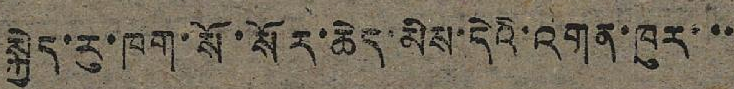སྐྱེད་རུ་ཁག་སོ་སོར་ཆེད་མིས་དེའི་འགན་ཁུར་་་
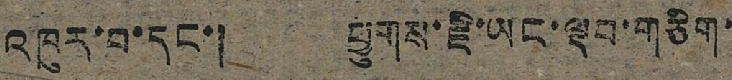འཁུར་བ་དང་། ཕྱུགས་རྫི་ཡང་ལྡབ་གཅིག་
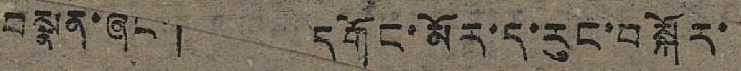བསྣན་ཞིང་། དགོང་མོར་ད་རུང་བསྐོར་
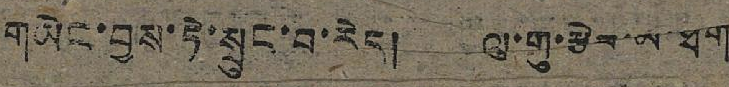གཡེང་བྱས་ཏེ་སྲུང་བ་རེད། ལུ་གུ་རྩེས་མ་ཐག་
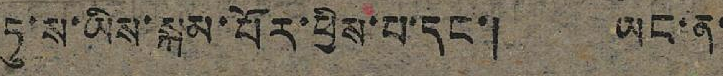ཏུ་ས་ཡིས་སྐམ་པོར་ཕྱིས་པ་དང་། ཡང་ན་
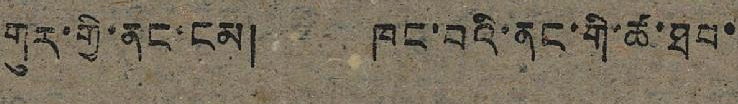གུར་གྱི་ནང་ངམ། ཁང་བའི་ནང་གི་ཚ་ཐབ་
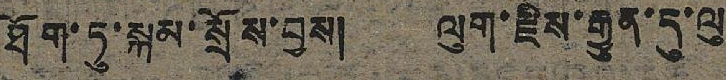ཐོག་ཏུ་སྐམ་སྲོས་བྱས། ལུག་རྫིས་རྒྱུན་དུ་ལུ
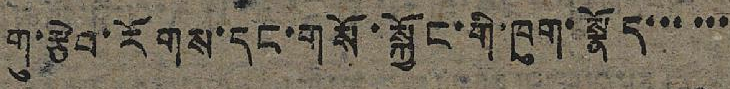གུ་རྩེབ་རོགས་དང་གསོ་སྐྱོང་གི་ཁུག་སྣོད་་་་་་
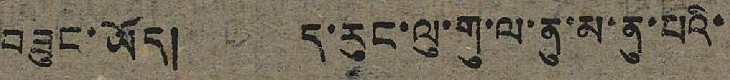བཟུང་ཡོད། ད་རུང་ལུ་གུ་ལ་ནུ་མ་ནུ་པའི་
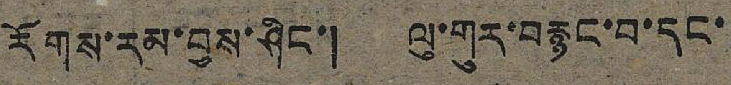རོགས་རམ་བྱས་ཤིང་། ལུ་གུར་བརྙང་བ་དང་
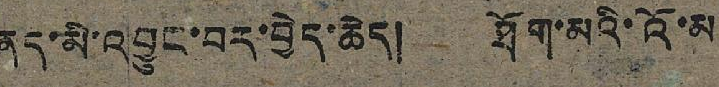ནད་མི་འབྱུང་བར་བྱེད་ཆེད། ཐོག་མའི་འོ་མ
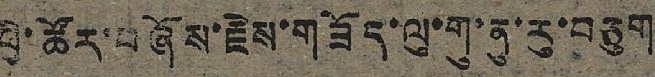ཕྱི་ཚོར་བཞོས་རྗེས་གཟོད་ལུ་གུ་ནུ་རུ་བཅུག
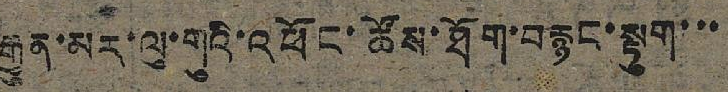རྒྱུན་མར་ལུ་གུའི་འཕོང་ཚོས་ཐོག་བརྙང་སྟུག་་་
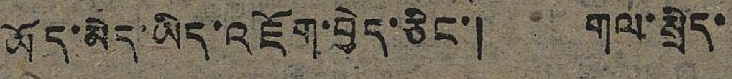ཡོད་མེད་ཡིད་འཇོག་བྱེད་ཅིང་། གལ་སྲིད་
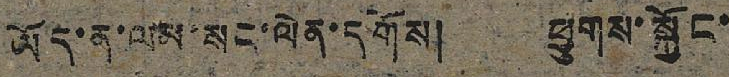ཡོད་ན་ལམ་སང་ལེན་དགོས། ཕྱུགས་སྐྱོང་
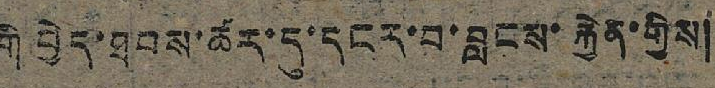གི་བྱེད་ཐབས་ཚར་དུ་དངར་བ་བླངས་རྐྱེན་གྱིས།
